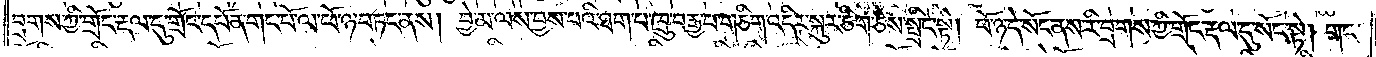བྲགས་ཀྱི་གྲོང་རྡལ་དུ་གྲོང་དཔོན་གང་པོ་ལ་ཕོ་ཉ་བཏང་ནས། བྱེ་མ་ལས་བྱས་པའི་ཐག་པ་ཁྲུ་བརྒྱ་པ་གཅིག་འདིར་སྐུར་ཅིག་ཅེས་སྤྲིང་སྟེ། ཕོ་ཉ་དེ་སོང་ནས་རི་བྲགས་ཀྱི་གྲོང་རྡལ་དུ་སོང་སྟེ། གང་
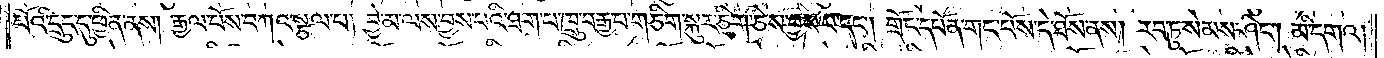པོའི་དྲུང་དུ་ཕྱིན་ནས། རྒྱལ་པོས་བཀའ་སྩལ་པ། བྱེ་མ་ལས་བྱས་པའི་ཐག་པ་ཁྲུ་བརྒྱ་པ་གཅིག་སྐུར་ཅིག་ཅེས་བྱས་པ་དང༌། གྲོང་དཔོན་གང་པོས་དེ་ཐོས་ནས། རབ་ཏུ་སེམས་ཤིང༌། མི་དགའ།
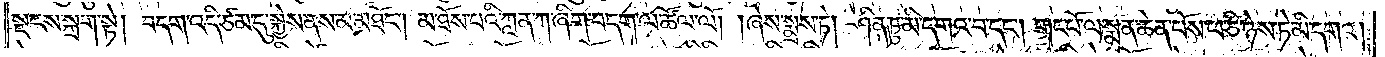སྡངས་སྐྲག་སྟེ། བདག་འདི་ཙམ་དུ་སྐྱེས་ནས་མ་མཐོང༌། མ་ཐོས་པའི་ཀླན་ཀ་ཞིག་བདག་ལ་ཚོལ་ལོ། །ཞེས་སྨྲས་ཏེ། ཤིན་ཏུ་མི་དགའ་བ་དང༌། གང་པོ་ལ་སྨན་ཆེན་པོས་ཕ་ཅི་ཉེས་ཏེ་མི་དགའ།
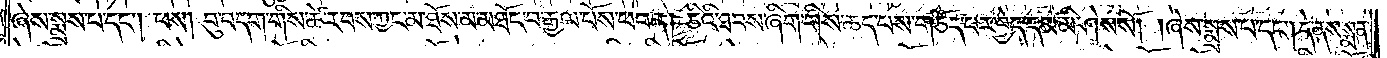ཞེས་སྨྲས་པ་དང༌། ཕས། བུ་བདག་གིས་ཚེ་རབས་ཀྱང་མ་ཐོས་མ་མཐོང་བ་རྒྱལ་པོས་ཕབ་ན། ཅིའི་ཐབས་ཞིག་གིས་ཆད་པས་གཅོད་པར་བྱེད་དམ་མི་ཤེས་སོ། །ཞེས་སྨྲས་པ་དང༌། དེ་ནས་སྨན་
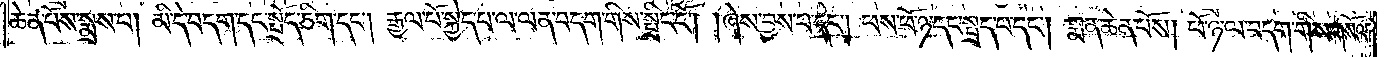ཆེན་པོས་སྨྲས་པ། མི་དེ་བདག་དང་སྤྲོད་ཅིག་དང༌། རྒྱལ་པོ་སྐྱེད་པ་ལ་ལན་བདག་གིས་སྤྲིང་ངོ༌། །ཞེས་བྱས་པ་དང༌། ཕས་ཕོ་ཉ་དང་སྤྲད་པ་དང༌། སྨན་ཆེན་པོས། ཕོ་ཉ་ལ་བདག་གིས་གསོལ་
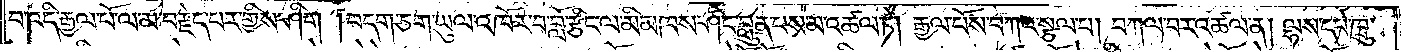པ་འདི་རྒྱལ་པོ་ལ་མ་བརྗེད་པར་གྱིས་ཤིག །བདག་ཅག་ཡུལ་འཁོར་བ་བློ་རྩིང་ལ་མི་མཁས་ཤིང་བླུན་པས་མ་འཚལ་ཏེ། རྒྱལ་པོས་བཀའ་སྩལ་པ། བཀལ་བར་འཚལ་ན། ལྷས་དཔེ་ཁྲུ་
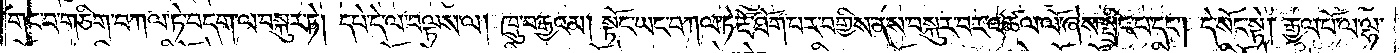གང་བ་གཅིག་བཀལ་ཏེ་བདག་ལ་བསྐུར་ཏེ། དཔེ་དེ་ལ་བལྟས་ལ། ཁྲུ་བརྒྱའམ། སྟོང་ཡང་བཀལ་ཏེ་རྔོ་ཐོག་པར་བགྱིས་ནས་བསྐུར་བར་འཚལ་ལོ་ཞེས་སྤྲིང་བ་དང༌། དེ་སོང་སྟེ། རྒྱལ་པོ་ལ་ལྷ་
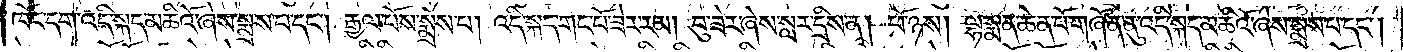ཁོང་དག་འདི་སྐད་མཆིའོ་ཞེས་སྨྲས་པ་དང༌། རྒྱལ་པོས་སྨྲས་པ། འདི་སྐད་གང་པོ་ཟེར་རམ། བུ་ཟེར་ཞེས་སླར་དྲིས་ན། ཕོ་ཉས། ལྷ་སྨན་ཆེན་པོ་གཞོན་ནུ་འདི་སྐད་མཆིའོ་ཞེས་སྨྲས་པ་དང༌།
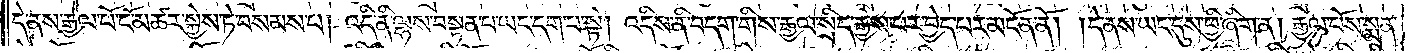དེ་ནས་རྒྱལ་པོ་ངོ་མཚར་སྐྱེས་ཏེ་བསམས་པ། འདི་ནི་ལྷས་བསྟན་པ་ཡང་དག་པ་སྟེ། འདིས་ནི་བདག་གིས་རྒྱལ་སྲིད་རྒྱས་པར་བྱེད་པར་མངོན་ནོ། །དེ་ནས་ཡང་དུས་ཕྱི་ཞིག་ན། རྒྱལ་པོས་སྨན་
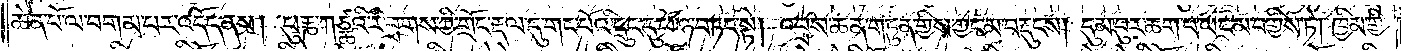ཆེན་པོ་ལ་བགམ་པར་འདོད་ནས། པུརྞ་ཀཙྪའི་རི་བྲགས་ཀྱི་གྲོང་རྡལ་དུ་གང་པོའི་དྲུང་དུ་ཕོ་ཉ་བཏང་སྟེ། འབྲས་ཆན་གཏུན་གྱིས་ཀྱང་མ་བརྡུངས། དུམ་བུར་ཆག་པ་ཡང་མ་བགྱིས་ཏེ། ཁྱིམ་གྱི་
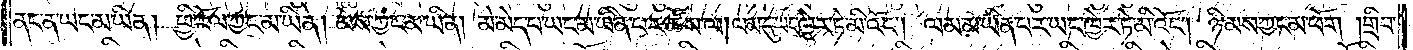ནང་ན་ཡང་མ་ཡིན། ཕྱི་རོལ་ཀྱང་མ་ཡིན། མེས་ཀྱང་མ་ཡིན། མེ་མེད་པ་ཡང་མ་ཡིན་པར་ཚོས་ལ། ལམ་དུ་ཡང་ཁྱེར་ཏེ་མི་འོང༌། ལམ་མ་ཡིན་པར་ཡང་ཁྱེར་ཏེ་མི་འོང༌། ཉི་མས་ཀྱང་མ་ཕོག །གྲིབ་
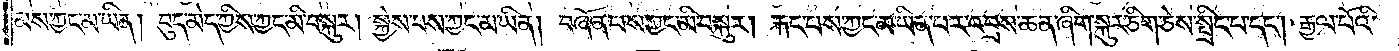མས་ཀྱང་མ་ཡིན། བུད་མེད་ཀྱིས་ཀྱང་མི་བསྐུར། སྐྱེས་པས་ཀྱང་མ་ཡིན། བཞོན་པས་ཀྱང་མི་བསྐུར། རྐང་པས་ཀྱང་མ་ཡིན་པར་འབྲས་ཆན་ཞིག་སྐུར་ཅིག་ཅེས་སྤྲིང་པ་དང༌། རྒྱལ་པོའི་
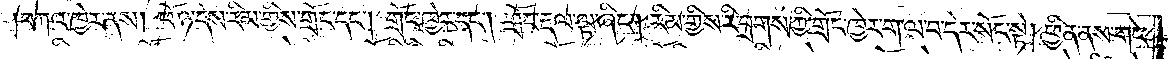བཀའ་ཁྱེར་ནས། ཕོ་ཉ་དེས་རིམ་གྱིས་གྲོང་དང༌། གྲོང་ཁྱེར་དང༌། གྲོང་རྡལ་ལྟ་ཞིང༌། རིམ་གྱིས་རི་བྲགས་ཀྱི་གྲོང་ཁྱེར་ག་ལ་བ་དེར་སོང་སྟེ། ཕྱིན་ནས་གང་
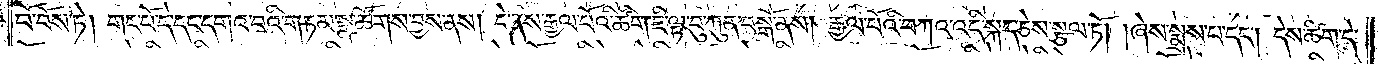པོ་བོས་ཏེ། གང་པོ་དེ་དང་དགའ་བའི་གཏམ་སྣ་ཚོགས་བྱས་ནས། དེ་ནས་རྒྱལ་པོའི་ཚིག་ཇི་ལྟ་བུ་ཀུན་བསྒོ་ནས། རྒྱལ་པོའི་བཀའ་འདི་སྐད་ཅེས་སྩལ་ཏོ། །ཞེས་སྨྲས་པ་དང༌། དེས་ཚིག་དེ་
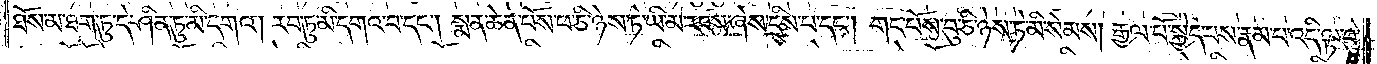ཐོས་མ་ཐག་ཏུ་དེ་ཤིན་ཏུ་མི་དགའ། རབ་ཏུ་མི་དགའ་བ་དང༌། སྨན་ཆེན་པོས་ཕ་ཅི་ཉེས་ཏེ་ཡི་མ་རངས་ཞེས་དྲིས་པ་དང༌། གང་པོས་བུ་ཅི་ཉེས་ཏེ་མི་སེམས། རྒྱལ་པོ་སྐྱེད་པས་རྣམ་པ་འདི་ལྟ་བུ་
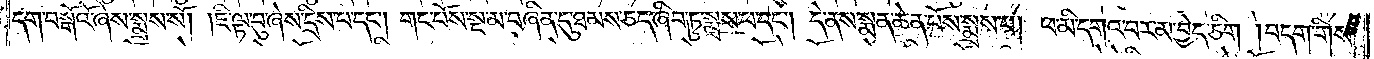དག་བསྒོའོ་ཞེས་སྨྲས་སོ། །ཇི་ལྟ་བུ་ཞེས་དྲིས་པ་དང༌། གང་པོས་སྔ་མ་བཞིན་དུ་ཐམས་ཅད་ཞིབ་ཏུ་སྨྲས་པ་དང༌། དེ་ནས་སྨན་ཆེན་པོས་སྨྲས་པ་དང༌། ཕ་མི་དགའ་བར་མ་བྱེད་ཅིག །བདག་གིས་
